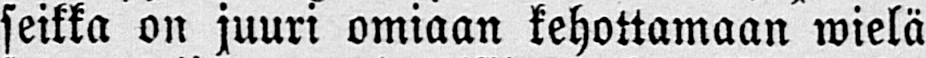seikka on juuri omiaan kehottamaan wielä
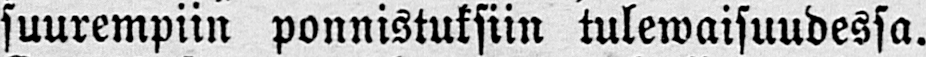suurempiin ponnistuksiin tulewaisuudessa.
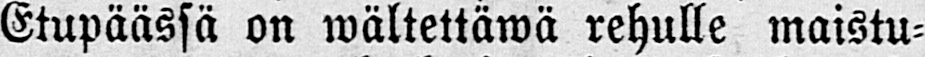Etupäässä on wältettäwä rehulle maistu-
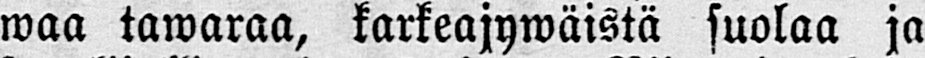waa tawaraa, karkeajywäistä suolaa ja
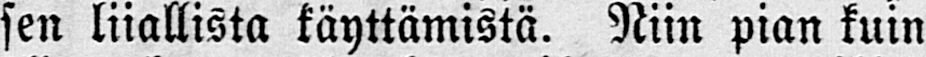sen liiallista käyttämistä. Niin pian kuin
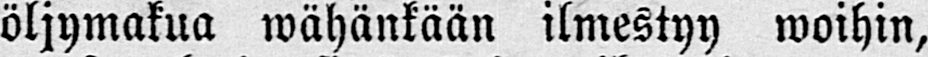öljymakua wähänkään ilmestyy woihin,
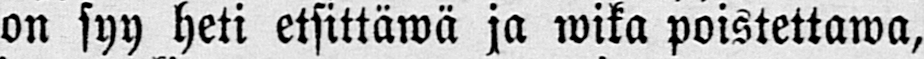on syy heti etsittäwä ja wika poistettawa,
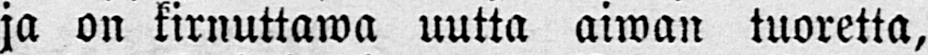ja on kirnuttawa uutta aiwan tuoretta,
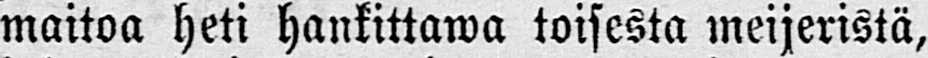maitoa heti hankittawa toisesta meijeristä,
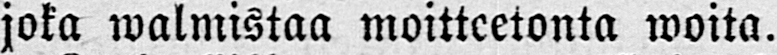joka walmistaa moitteetonta woita.
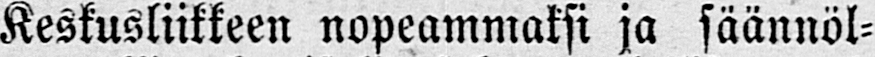Keskusliikkeen nopeammaksi ja säännöl-
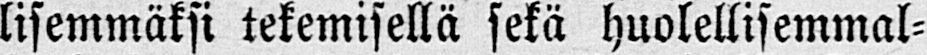lisemmäksi tekemisellä sekä huolellisemmal-
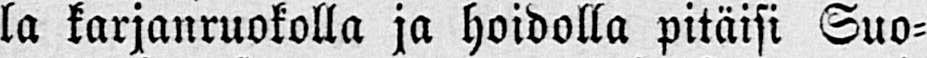la karjanruokolla ja hoidolla pitäisi Suo-
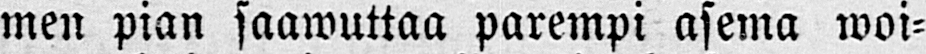men pian saawuttaa parempi asema woi-
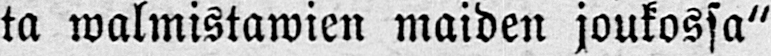ta maiden joukossa"
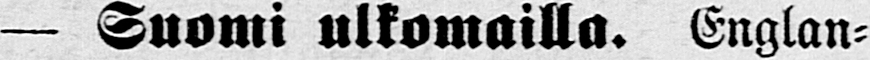— Suomi ulkomailla. Englan-
